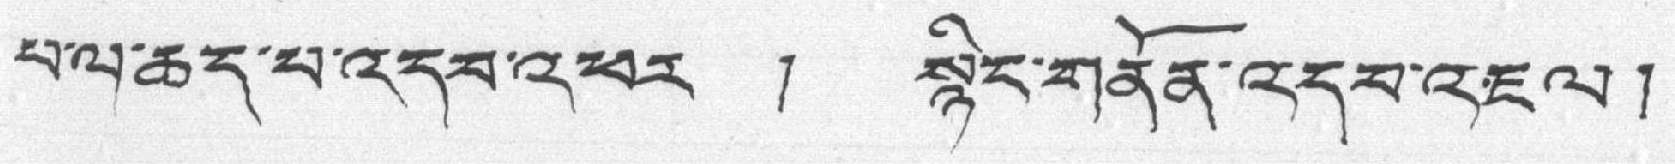པལ་ཆད་པ་འདབ་འཕར ། སྙིང་གནོན་འདབ་འཇལ །
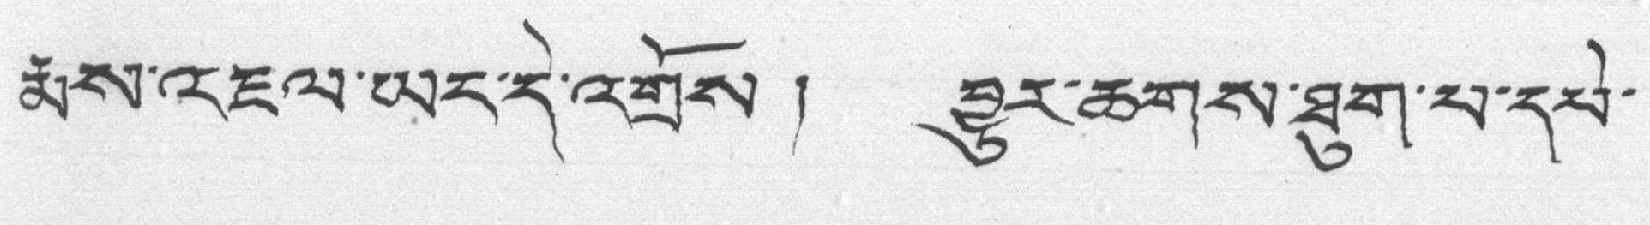རྨས་འཇལ་ཡང་དེ་འགྲོས ། བྱུར་ཆགས་ཐུག་པ་དཔེ་
